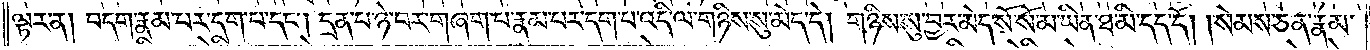ལྟར་ན། བདག་རྣམ་པར་དག་པ་དང༌། དྲན་པ་ཉེ་བར་གཞག་པ་རྣམ་པར་དག་པ་འདི་ལ་གཉིས་སུ་མེད་དེ། གཉིས་སུ་བྱར་མེད་སོ་སོ་མ་ཡིན་ཐ་མི་དད་དོ། །སེམས་ཅན་རྣམ་
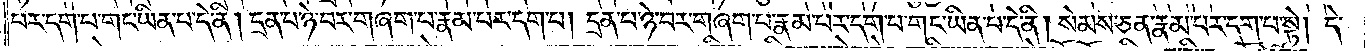པར་དག་པ་གང་ཡིན་པ་དེ་ནི། དྲན་པ་ཉེ་བར་གཞག་པ་རྣམ་པར་དག་པ། དྲན་པ་ཉེ་བར་བཞག་པ་རྣམ་པར་དག་པ་གང་ཡིན་པ་དེ་ནི། སེམས་ཅན་རྣམ་པར་དག་པ་སྟེ། དེ་
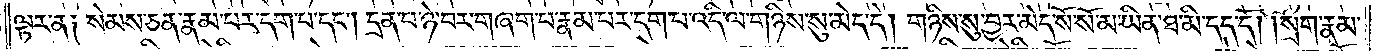ལྟར་ན། སེམས་ཅན་རྣམ་པར་དག་པ་དང༌། དྲན་པ་ཉེ་བར་བཞག་པ་རྣམ་པར་དག་པ་འདི་ལ་གཉིས་སུ་མེད་དེ། གཉིས་སུ་བྱར་མེད་སོ་སོ་མ་ཡིན་ཐ་མི་དད་དོ། །སྲོག་རྣམ་
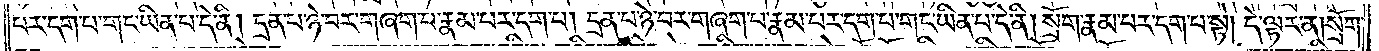པར་དག་པ་གང་ཡིན་པ་དེ་ནི། དྲན་པ་ཉེ་བར་གཞག་པ་རྣམ་པར་དག་པ། དྲན་པ་ཉེ་བར་གཞག་པ་རྣམ་པར་དག་པ་གང་ཡིན་པ་དེ་ནི། སྲོག་རྣམ་པར་དག་པ་སྟེ། དེ་ལྟར་ན། སྲོག་
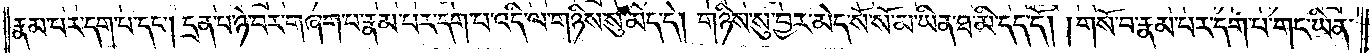རྣམ་པར་དག་པ་དང༌། དྲན་པ་ཉེ་བར་གཞག་པ་རྣམ་པར་དག་པ་འདི་ལ་གཉིས་སུ་མེད་དེ། གཉིས་སུ་བྱར་མེད་སོ་སོ་མ་ཡིན་ཐ་མི་དད་དོ། །གསོ་བ་རྣམ་པར་དག་པ་གང་ཡིན་
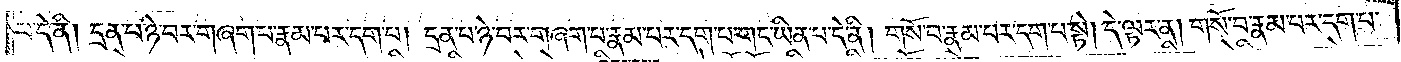པ་དེ་ནི། དྲན་པ་ཉེ་བར་གཞག་པ་རྣམ་པར་དག་པ། དྲན་པ་ཉེ་བར་གཞག་པ་རྣམ་པར་དག་པ་གང་ཡིན་པ་དེ་ནི། གསོ་བ་རྣམ་པར་དག་པ་སྟེ། དེ་ལྟར་ན། གསོ་བ་རྣམ་པར་དག་པ་
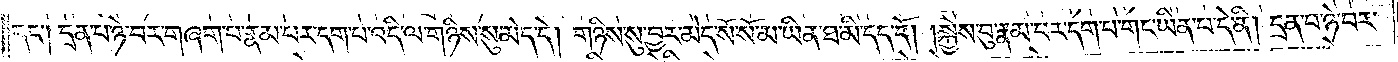དང༌། དྲན་པ་ཉེ་བར་གཞག་པ་རྣམ་པར་དག་པ་འདི་ལ་གཉིས་སུ་མེད་དེ། གཉིས་སུ་བྱར་མེད་སོ་སོ་མ་ཡིན་ཐ་མི་དད་དོ། །སྐྱེས་བུ་རྣམ་པར་དག་པ་གང་ཡིན་པ་དེ་ནི། དྲན་པ་ཉེ་བར་
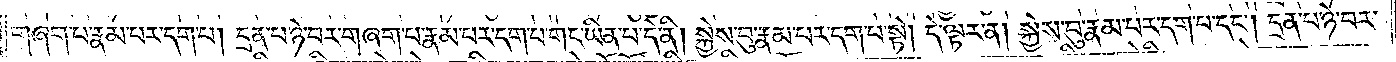གཞག་པ་རྣམ་པར་དག་པ། དྲན་པ་ཉེ་བར་གཞག་པ་རྣམ་པར་དག་པ་གང་ཡིན་པ་དེ་ནི། སྐྱེས་བུ་རྣམ་པར་དག་པ་སྟེ། དེ་ལྟར་ན། སྐྱེས་བུ་རྣམ་པར་དག་པ་དང༌། དྲན་པ་ཉེ་བར་
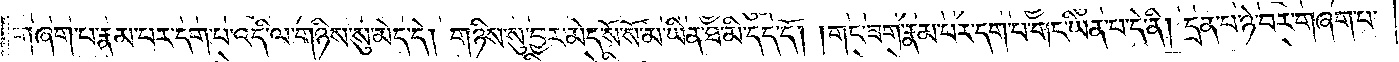གཞག་པ་རྣམ་པར་དག་པ་འདི་ལ་གཉིས་སུ་མེད་དེ། གཉིས་སུ་བྱར་མེད་སོ་སོ་མ་ཡིན་ཐ་མི་དད་དོ། །གང་ཟག་རྣམ་པར་དག་པ་གང་ཡིན་པ་དེ་ནི། དྲན་པ་ཉེ་བར་གཞག་པ་
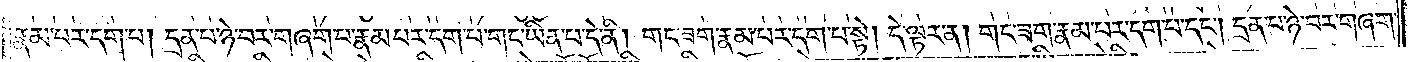རྣམ་པར་དག་པ། དྲན་པ་ཉེ་བར་གཞག་པ་རྣམ་པར་དག་པ་གང་ཡིན་པ་དེ་ནི། གང་ཟག་རྣམ་པར་དག་པ་སྟེ། དེ་ལྟར་ན། གང་ཟག་རྣམ་པར་དག་པ་དང༌། དྲན་པ་ཉེ་བར་བཞག་
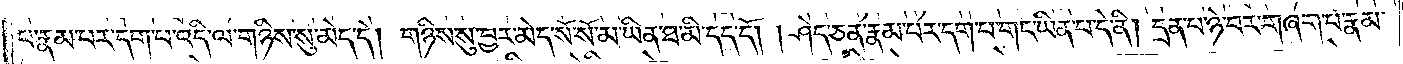པ་རྣམ་པར་དག་པ་འདི་ལ་གཉིས་སུ་མེད་དེ། གཉིས་སུ་བྱར་མེད་སོ་སོ་མ་ཡིན་ཐ་མི་དད་དོ། །ཤེད་ཅན་རྣམ་པར་དག་པ་གང་ཡིན་པ་དེ་ནི། དྲན་པ་ཉེ་བར་གཞག་པ་རྣམ་
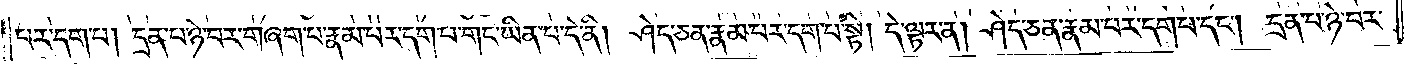པར་དག་པ། དྲན་པ་ཉེ་བར་གཞག་པ་རྣམ་པར་དག་པ་གང་ཡིན་པ་དེ་ནི། ཤེད་ཅན་རྣམ་པར་དག་པ་སྟེ། དེ་ལྟར་ན། ཤེད་ཅན་རྣམ་པར་དག་པ་དང༌། དྲན་པ་ཉེ་བར་
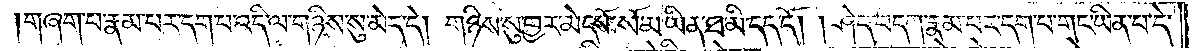བཞག་པ་རྣམ་པར་དག་པ་འདི་ལ་གཉིས་སུ་མེད་དེ། གཉིས་སུ་བྱར་མེད་སོ་སོ་མ་ཡིན་ཐ་མི་དད་དོ། །ཤེད་བདག་རྣམ་པར་དག་པ་གང་ཡིན་པ་དེ་
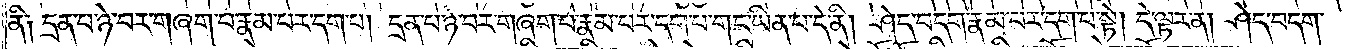ནི། དྲན་པ་ཉེ་བར་གཞག་པ་རྣམ་པར་དག་པ། དྲན་པ་ཉེ་བར་གཞག་པ་རྣམ་པར་དག་པ་གང་ཡིན་པ་དེ་ནི། ཤེད་བདག་རྣམ་པར་དག་པ་སྟེ། དེ་ལྟར་ན། ཤེད་བདག་
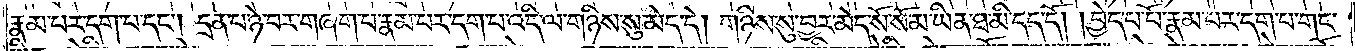རྣམ་པར་དག་པ་དང༌། དྲན་པ་ཉེ་བར་གཞག་པ་རྣམ་པར་དག་པ་འདི་ལ་གཉིས་སུ་མེད་དེ། གཉིས་སུ་བྱར་མེད་སོ་སོ་མ་ཡིན་ཐ་མི་དད་དོ། །བྱེད་པ་པོ་རྣམ་པར་དག་པ་གང་
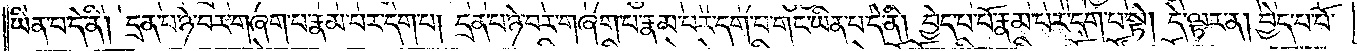ཡིན་པ་དེ་ནི། དྲན་པ་ཉེ་བར་གཞག་པ་རྣམ་པར་དག་པ། དྲན་པ་ཉེ་བར་གཞག་པ་རྣམ་པར་དག་པ་གང་ཡིན་པ་དེ་ནི། བྱེད་པ་པོ་རྣམ་པར་དག་པ་སྟེ། དེ་ལྟར་ན། བྱེད་པ་པོ་
